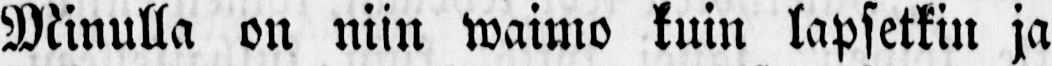Minulla on niin waimo kuin lapsetkin ja
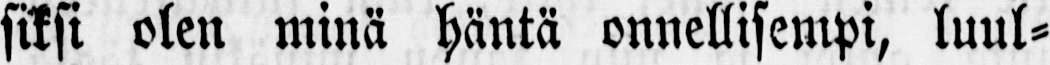siksi olen minä häntä onnellisempi, luul-
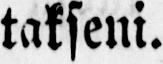takseni.
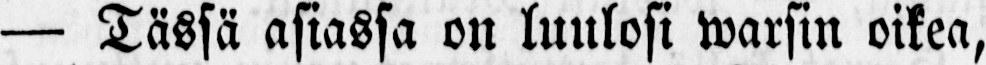— Tässä asiassa on luulosi warsin oikea,
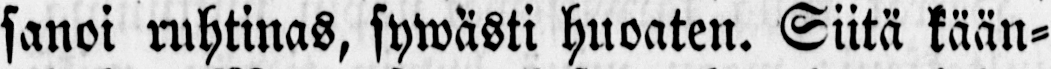sanoi ruhtinas, sywästi huoaten. Siitä kään-
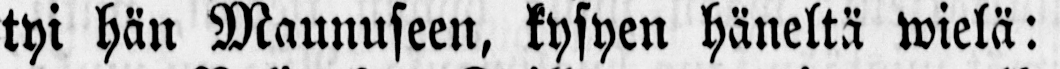tyi hän Maunuseen, kysyen häneltä wielä:
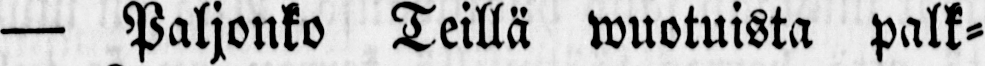— Paljonko Teillä wuotuista palk-
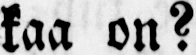kaa on?
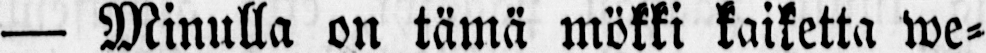— Minulla on tämä mökki kaiketta we-
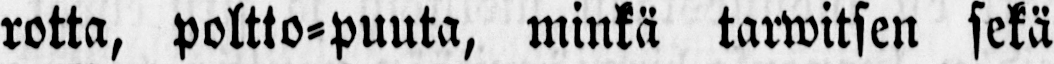rotta, poltto-puuta, minkä tarwitsen sekä
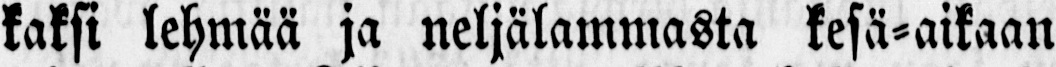kaksi lehmää ja neljälammasta kesä-aikaan
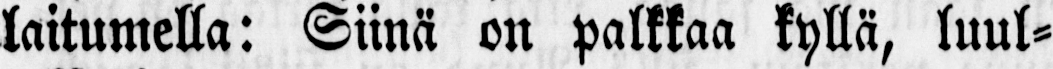laitumella: Siinä on palkkaa kyllä, luul-
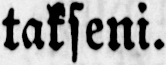lakseni.
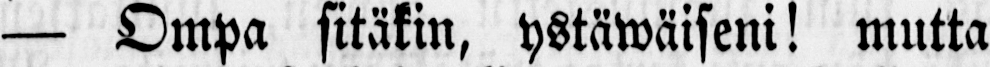— Ompa sitäkin, ystäwäiseni! mutta
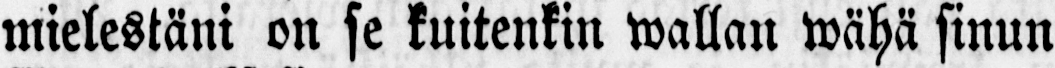mielestäni on se kuitenkin wallan wähä sinun
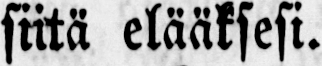siitä elääksesi.
